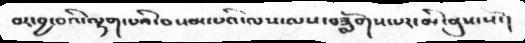བར་བྱ་བའི་ལྷག་པའི་བསམ་པའི་ལས་ལས་བཟློག་པར་མི་ནུས་སོ་།
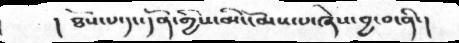།   ཐོས་པ་དང་དོན་གྱིས་མི་ངོམས་པ་ཞེས་བྱ་བ་ནི་།
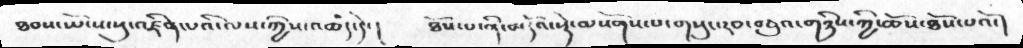ཐབས་ཡོངས་སུ་འཛིན་པའི་ལས་ཀྱིས་འཆད་དེ་།    ཐོས་པ་ནི་མདོའ་སྡེ་ལསོགས་པ་གསུང་རབ་བཅུའ་གཉིས་ཀྱི་ཆོས་ཐོས་པའོ་།
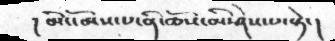། མི་ངོམས་པ་ནི་ཆོས་མི་ཤེས་པ་སྟེ་།
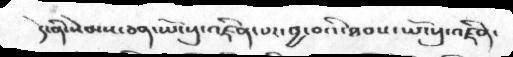དེ་ནི་སེམས་ཅན་ཡོངསུ་འཛིན་པར་བྱ་བའི་ཐབས་ཡོངསུ་འཛིན་
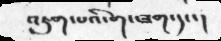འཇུག་པའི་གང་ཟག་དང་།
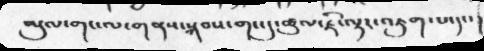མུལ་གང་ལ་གནས་སྐབས་གང་དུ་ཚུལ་ཇི་ལྟར་འཇུག་པ་དང་།
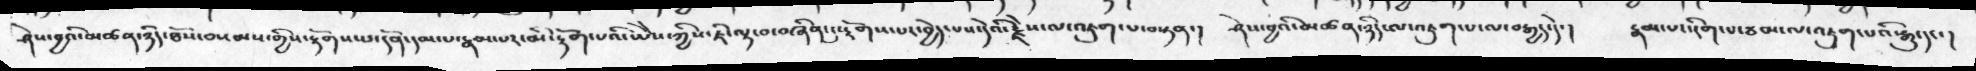ཤེས་བྱའི་མཚན་ཉིད་ཐོས་བསམས་གྱིས་རྟོགས་པ་དོན་དམ་པ་རྣམ་པར་མི་རྟོག་པའི་ཡཻས་ཀྱིས་ཇི་ལྟ་བ་བཞིན་དུ་རྟོགས་པར་བྱེད་པས་དེའི་རྗེས་ལ་འཇུག་པ་བསྟན་།   ཤེས་བྱའི་མཚན་ཉིད་ལ་འཇུག་པ་ལ་བརྒྱད་དེ་།    རྣམ་པར་རིག་པ་ཙམ་ལ་འཇུག་པའི་རྒྱུ་དང་།
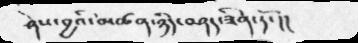ཤེས་བྱའི་མཚན་ཉིད་བཤད་ཟིན་ཏོ་ །།
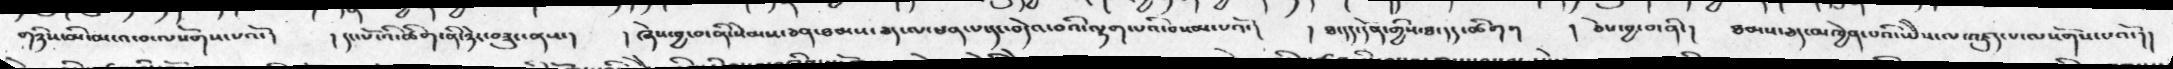གཉིས་མི་མངའ་བ་ལསོགས་པའོ་།    ། དང་པོ་འི་ཚིག་ནི་ཉེར་བཟུང་ནས་།    ། ཞེས་བྱ་བ་ནི་སེམས་ཅན་ཐམས་ཅད་ལ་ཕན་པ་དང་བདེའ་བའི་ལྷག་པའི་བསམ་པའོ་།    ། ཐ་དད་དོན་གྱིས་ཐ་དད་ཚིག་།   །  ཅེས་བྱ་བ་ནི་།   ཐམས་ཅད་མཁྱེན་པའི་ཡཻས་ལ་འཛུད་པ་ལསོགས་པའོ་།།
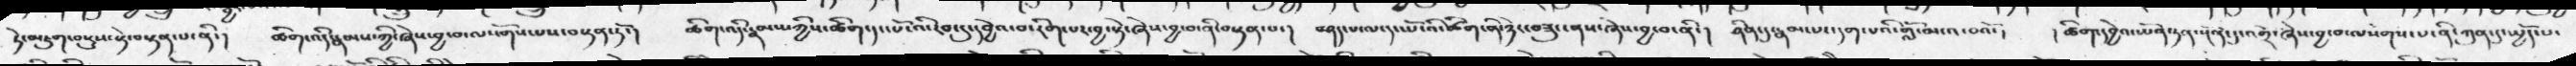ཏེ་མཇུག་བསྡུས་སྟེ་བསྟན་པ་ནི་།    ཚིག་འདི་རྣམས་ཀྱི་ཞེས་བྱ་བ་ལསོགས་པས་བསྟན་ཏོ་།   ཚིག་འདི་རྣམས་ཀྱིས་ཚིག་དང་པོ་འི་རབ་དུ་དབྱེའ་བ་རིག་པར་བྱ་སྟེ་ཞེས་བྱ་བ་ནི་བསྟན་པ་།   བཤད་པ་ལ་དང་པོ་འི་ཚིག་ནི་ཉེར་བཟུང་ནས་ཞེས་བྱ་བ་ནི་།   ཤིན་དུ་རྣམ་པར་དག་པའི་གློ་མངའ་བའོ་།   ། ཚིག་དབྱེའ་ཡོན་ཏན་སྔོན་དུ་འགྲོ་ཞེས་བྱ་བ་ལསོགས་པ་ནི་ཀུན་དུ་སྤྱོད་པ་
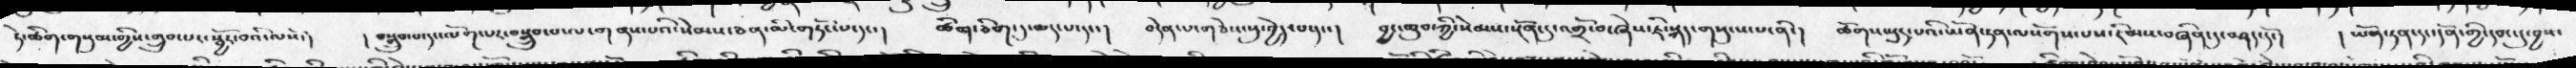ཏེ་ཚིག་གསུམ་གྱིས་གྲུབ་པར་སྦྱོར་བའི་ལསོ་།  ། བསྒྲུབ་པ་དང་ལོག་པར་བསྒྲུབ་པ་ལ་གནས་པའི་སེམས་ཅན་མི་གཏོང་པ་དང་།  ཚིག་ཅིག་དུ་ཆད་པ་དང་།  བདེན་པ་གཅེས་སུ་བྱེད་པ་དང་།  བྱང་ཆུབ་ཀྱི་སེམས་སྔོན་དུ་འགྲོ་བ་ཞེས་ཇི་སྐད་གསུང་པ་ནི་།  ཚོགས་སྡུད་པའི་ཡོན་ཏན་ལསོགས་པས་རིམས་བཞིན་དུ་བཤད་དོ་།  ། ཡོན་ཏན་དང་དོན་གྱི་དབང་དུ་བྱས་
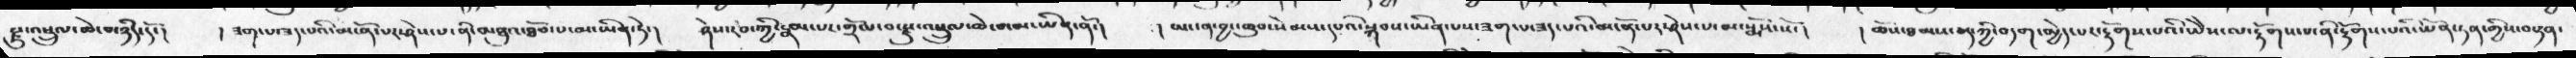རྫུ་འཕྲུལ་ཆེ་བ་ཉིད་དོ་།   ། ཟག་པ་ཟད་པའི་མངོན་པར་ཤེས་པ་ནི་མཐུའ་ཐོབ་པ་མ་ཡིན་ཏེ་།  ཤེས་རབ་ཀྱི་རྣམ་པར་གྲོལ་བ་རྫུ་འཕྲུལ་ཆེ་བ་མ་ཡིན་ནོ་།  ། ཡང་ན་བྱང་ཆུབ་སེམས་དཔའི་སྐབས་ཡིན་པས་ཟག་པ་ཟད་པའི་མངོན་པར་ཤེས་པ་མ་སྨོས་སོ་།  ། ཆོས་ཐམས་ཅད་ཀྱི་བདག་མྱེད་པར་རྟོགས་པའི་ཡེེས་ལ་རྟོགས་པ་ནི་རྟོགས་པའི་ཡོན་ཏན་གྱིས་བསྟན་
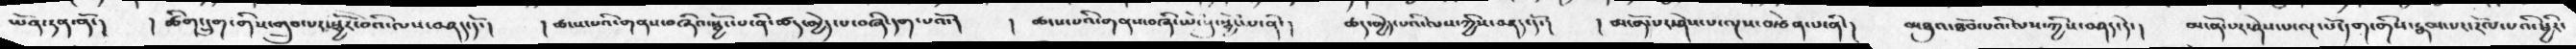ཡོན་ཏན་ནོ་།  ། ཚིག་དྲུག་གིས་གྲུབ་པར་སྦྱོར་བའི་ལས་བཤད་དོ་།  ། ཚངས་པའི་གནས་བཞིའ་སྦྱོང་པ་ནི་ཚད་མྱེད་པ་བཞིན་དག་པའོ་།  ། ཚངས་པའི་གནས་བཞི་ཡོངསུ་སྦྱོང་པ་ནི་།  ཚད་མྱེད་པའི་ལས་ཀྱིས་བཤད་དོ་།  ། མངོན་པར་ཤེས་པ་ལྔས་བརྩེན་པ་ནི་།  མཐུའ་ཐོབ་པའི་ལས་ཀྱིས་བཤད་དེ་།  མངོན་པར་ཤེས་པ་ལྔ་པོ་དག་གིས་རྣམ་པར་རོལ་པའི་ཕྱིར་
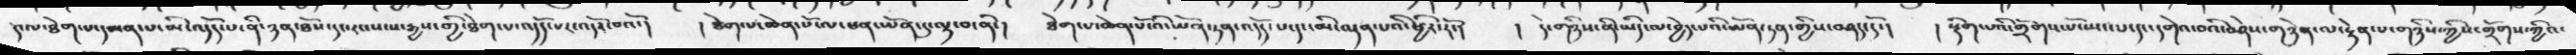དེ་ལ་ཐེག་པ་དམན་པ་མི་འདོད་པ་ནི་ཉན་ཐོས་དང་རང་སངས་རྒྱས་གྱི་ཐེག་པ་འདོད་པར་འདོར་བའོ་།   །ཐེག་པ་ཆེན་པོ་ལ་ཕན་ཡོན་དུ་ལྟ་བ་ནི་།   ཐེག་པ་ཆེན་པོ་འི་ཡོན་ཏན་འདོད་པ་དང་མི་ལྡན་པའི་ཕྱིར་རོ་།   །དེ་གཉིས་ནི་ཡིད་ལ་བྱེད་པའི་ཡོན་ཏན་གྱིས་བཤད་དོ་།   །སྡིག་པའི་གྲོགས་པོ་སྤང་པ་དང་དགེའ་བའི་བཤེན་གཉེན་ལ་རྟེན་པ་གཉིས་ཀྱིས་གྲོགས་ཀྱིའ་
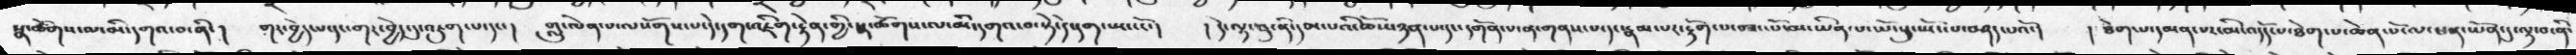སྣ་ཚོགས་ལ་མི་དགའ་བ་ནི་།  གང་བྱེད་པ་དང་གང་བྱེད་དུ་འཇུག་པ་དང་།  གླུ་ལེན་པ་ལསོགས་པ་དེ་དག་འཇིག་རྟེན་གྱི་སྣ་ཚོགས་ལ་མི་དགའ་བ་སྟེ་དེ་དག་སྤང་ངོ་།  ། དེ་ལྟ་བུ་ནི་དམ་པའི་ཆོས་མཉན་པ་དང་དགོན་པ་ན་གནས་པ་དང་རྣམ་པར་རྟོག་པ་བཟང་པོ་མ་ཡིན་པ་ཡོངསུ་སྤོང་པ་བཤད་པའོ་།  ། ཐེག་པ་དམན་པར་མི་འདོད་པ་ཐེག་པ་ཆེན་པོ་ལ་ཕན་ཡོན་དུ་ལྟ་བ་ནི་
